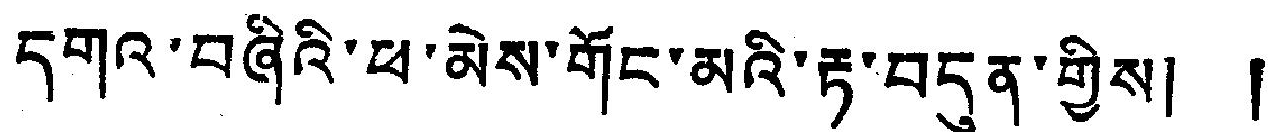དགའ་བཞིའི་ཕ་མེས་གོང་མའི་རྟ་བདུན་གྱིས། །
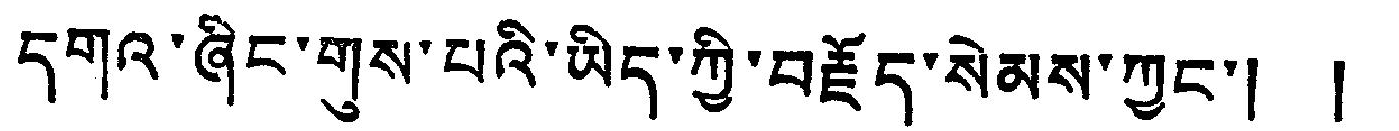དགའ་ཞིང་གུས་པའི་ཡིད་ཀྱི་བརྗོད་སེམས་ཀྱང་། །
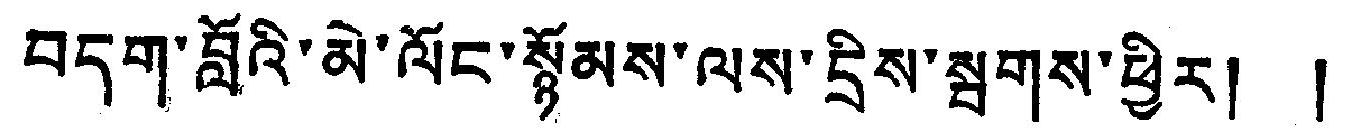བདག་བློའི་མེ་ལོང་སྙོམས་ལས་དྲིས་སྦགས་ཕྱིར། །
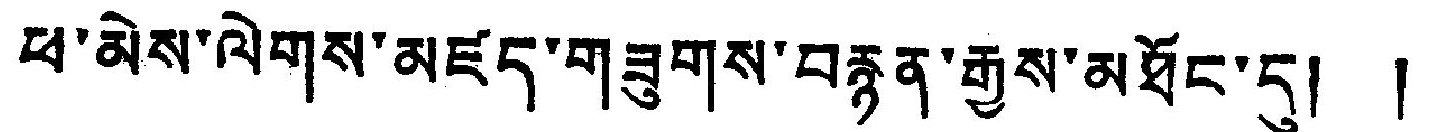ཕ་མེས་ལེགས་མཛད་གཟུགས་བརྙན་རྒྱས་མཐོང་དུས། །
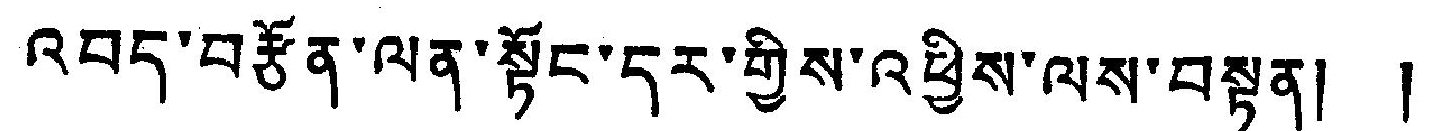འབད་བརྩོན་ལན་སྟོང་དར་གྱིས་འཕྱིས་ལས་བསྟན། །
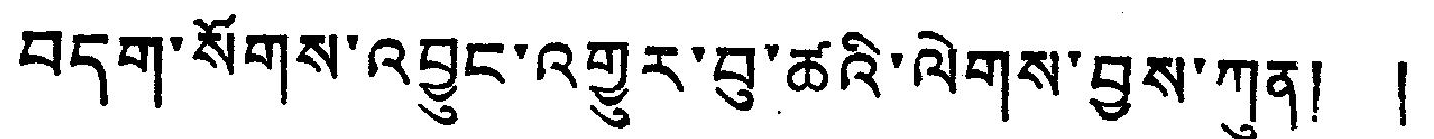བདག་སོགས་འབྱུང་འགྱུར་བུ་ཚའི་ལེགས་བྱས་ཀུན། །
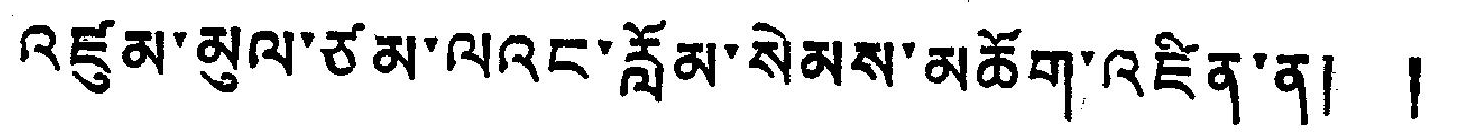འཛུམ་མུལ་ཙམ་ལའང་རློམ་སེམས་མཆོག་འཛིན་ན། །
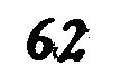62
